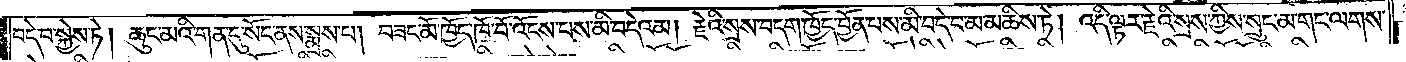བདེ་བ་སྐྱེས་ཏེ། ཆུང་མའི་གན་དུ་སོང་ནས་སྨྲས་པ། བཟང་མོ་ཁྱོད་ཁོ་བོ་འོངས་པས་མི་བདེའམ། རྗེའི་སྲས་བདག་ཁྱོད་བྱོན་པས་མི་བདེ་བ་མ་མཆིས་ཏེ། འདི་ལྟར་རྗེའི་སྲས་ཀྱིས་སྲུང་མ་གང་ལགས་
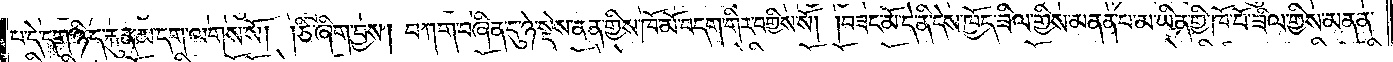པ་དེ་དག་ཉིད་རྐུན་མ་དག་ལགས་སོ། །ཅི་ཞིག་བྱས། བཀག་བཞིན་དུ་ཉེ་སྡེས་ནན་གྱིས་ཁོ་མོ་བདག་གིར་བགྱིས་སོ། །བཟང་མོ་དེ་ནི་དེས་ཁྱོད་ཟིལ་གྱིས་མནན་པ་མ་ཡིན་གྱི་ཁོ་བོ་ཟིལ་གྱིས་མནན་
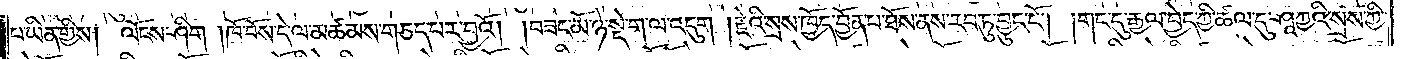པ་ཡིན་གྱིས། ལོངས་ཤིག །ཁོ་བོས་དེ་ལ་མཚམས་གཅད་པར་བྱའོ། །བཟང་མོ་ཉེ་སྡེ་ག་ལ་འདུག །རྗེའི་སྲས་ཁྱོད་བྱོན་པ་ཐོས་ནས་རབ་ཏུ་བྱུང་ངོ༌། །གང་དུ་རྒྱལ་བྱེད་ཀྱི་ཚལ་དུ་ཤཱཀྱའི་སྲས་ཀྱི་
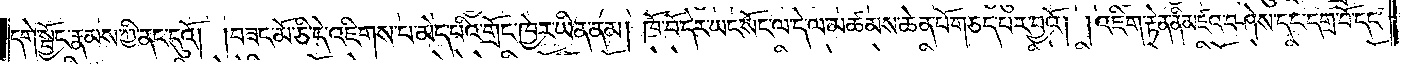དགེ་སྦྱོང་རྣམས་ཀྱི་ནང་དུའོ། །བཟང་མོ་ཅི་དེ་འཇིགས་པ་མེད་པའི་གྲོང་ཁྱེར་ཡིན་ནམ། ཁོ་བོ་དེར་ཡང་སོང་ལ་དེ་ལ་མཚམས་ཆེན་པོ་གཅད་པར་བྱའོ། །འཇིག་རྟེན་ནི་མཛའ་བཤེས་དང་དགྲ་བོ་དང་
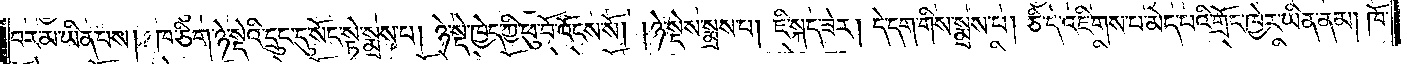བར་མ་ཡིན་པས། ཁ་ཅིག་ཉེ་སྡེའི་དྲུང་དུ་སོང་སྟེ་སྨྲས་པ། ཉེ་སྡེ་ཁྱེད་ཀྱི་ཕུ་བོ་འོངས་སོ། །ཉེ་སྡེས་སྨྲས་པ། ཇི་སྐད་ཟེར། དེ་དག་གིས་སྨྲས་པ། ཅི་དེ་འཇིགས་པ་མེད་པའི་གྲོང་ཁྱེར་ཡིན་ནམ། ཁོ་
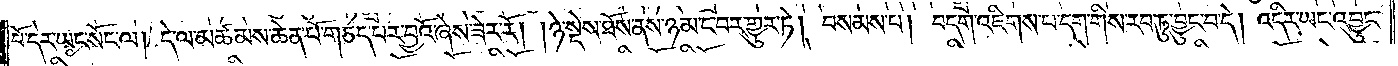བོ་དེར་ཡང་སོང་ལ། དེ་ལ་མཚམས་ཆེན་པོ་གཅད་པར་བྱའོ་ཞེས་ཟེར་རོ། །ཉེ་སྡེས་ཐོས་ནས་ཉམ་ང་བར་གྱུར་ཏེ། བསམས་པ། བདག་འཇིགས་པ་དག་གིས་རབ་ཏུ་བྱུང་བ་དེ། འདིར་ཡང་འབྱུང་
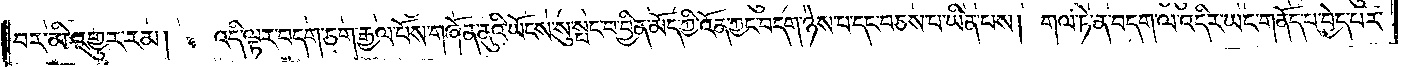བར་མི་འགྱུར་རམ།   འདི་ལྟར་བདག་ཅག་རྒྱལ་པོས་གཞོན་ནུའི་ཡོངས་སུ་སྤང་བ་བྱིན་མོད་ཀྱི་འོན་ཀྱང་བདག་ཉེས་པ་དང་བཅས་པ་ཡིན་པས། གལ་ཏེ་ན་བདག་ལ་འདིར་ཡང་གནོད་པ་བྱེད་པར་
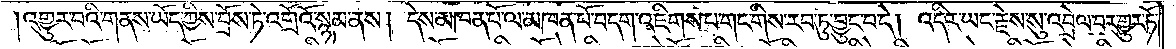འགྱུར་བའི་གནས་ཡོད་ཀྱིས་བྲོས་ཏེ་འགྲོའོ་སྙམ་ནས། དེས་མཁན་པོ་ལ་མཁན་པོ་བདག་འཇིགས་པ་གང་གིས་རབ་ཏུ་བྱུང་བ་དེ། འདིར་ཡང་རྗེས་སུ་འབྲེལ་བར་གྱུར་ཏོ་
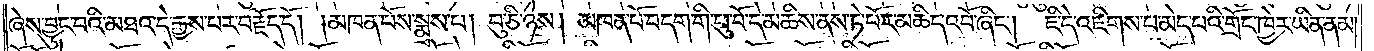ཞེས་བྱུང་བའི་མཐའ་དེ་རྒྱས་པར་བརྗོད་དོ། །མཁན་པོས་སྨྲས་པ། བུ་ཅི་ཉེས། མཁན་པོ་བདག་གི་ཕུ་བོ་དེ་མཆིས་ནས་ཏེ་པོར་མཆིད་འབོ་ཞིང༌། ཇི་དེ་འཇིགས་པ་མེད་པའི་གྲོང་ཁྱེར་ཡིན་ནམ།
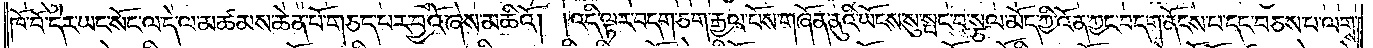ཁོ་བོ་དེར་ཡང་སོང་ལ་དེ་ལ་མཚམས་ཆེན་པོ་གཅད་པར་བྱའོ་ཞེས་མཆིའོ། །འདི་ལྟར་བདག་ཅག་རྒྱལ་པོས་གཞོན་ནུའི་ཡོངས་སུ་སྤང་བ་སྩལ་མོད་ཀྱི་འོན་ཀྱང་བདག་ནོངས་པ་དང་བཅས་པ་ལགས་
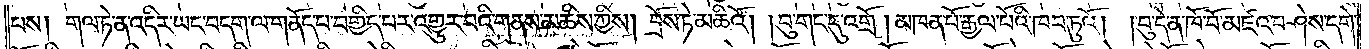པས། གལ་ཏེ་ན་འདིར་ཡང་བདག་ལ་གནོད་པ་བགྱིད་པར་འགྱུར་བའི་གནས་མཆིས་ཀྱིས། བྲོས་ཏེ་མཆིའོ། །བུ་གང་དུ་འགྲོ། མཁན་པོ་རྒྱལ་པོའི་ཁབ་ཏུའོ། །བུ་དེ་ན་ཁོ་བོ་མཛའ་བཤེས་དགེ་
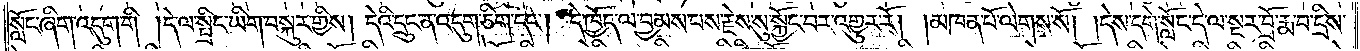སློང་ཞིག་འདུག་གི །དེ་ལ་སྤྲིང་ཡིག་བསྐུར་གྱིས། དེའི་དྲུང་ན་འདུག་ཅིག་དང༌། དེ་ཁྱོད་ལ་བྱམས་པས་རྗེས་སུ་སྐྱོང་བར་འགྱུར་རོ། །མཁན་པོ་ལེགས་སོ། །དེས་དགེ་སློང་དེ་ལ་སྔར་བྲོ་རྨ་བ་དྲིས་
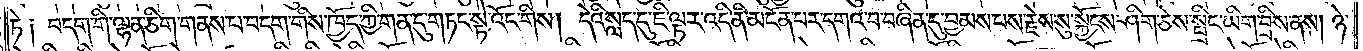ཏེ༑ བདག་གི་ལྷན་ཅིག་གནས་པ་བདག་གིས་ཁྱོད་ཀྱི་གན་དུ་གཏང་སྟེ་འོང་གིས། དེའི་སླད་དུ་ཇི་ལྟར་འདི་ནི་མངོན་པར་དགའ་བ་བཞིན་དུ་བྱམས་པས་རྗེས་སུ་སྐྱོངས་ཤིག་ཅེས་སྤྲིང་ཡིག་བྲིས་ནས། ཉེ་
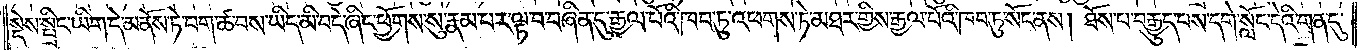སྡེས་སྤྲིང་ཡིག་དེ་མནོས་ཏེ་བག་ཚ་བས་ཡིད་མི་བདེ་ཞིང་ཕྱོགས་སུ་རྣམ་པར་ལྟ་བ་བཞིན་དུ་རྒྱལ་པོའི་ཁབ་ཏུ་འཕགས་ཏེ་མཐར་གྱིས་རྒྱལ་པོའི་ཁབ་ཏུ་སོང་ནས། ཐོས་པ་བརྒྱུད་པས་དགེ་སློང་དེའི་གན་དུ་
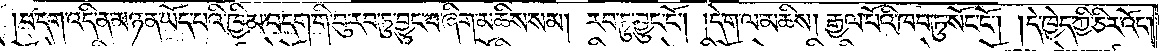པ་དག་འདི་ན་མཉན་ཡོད་པའི་ཁྱིམ་བདག་གི་བུ་རབ་ཏུ་བྱུང་བ་ཞིག་མཆིས་སམ། རབ་ཏུ་བྱུང་ངོ༌། །དེ་ག་ལ་མཆིས། རྒྱལ་པོའི་ཁབ་ཏུ་སོང་ངོ༌། །དེ་ཁྱེད་ཀྱི་ཅིར་འོང་
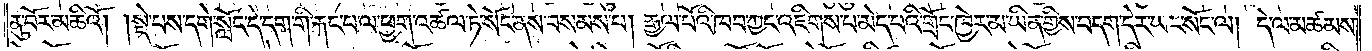ནུ་བོར་མཆིའོ། །སྡེ་པས་དགེ་སློང་དེ་དག་གི་རྐང་པ་ལ་ཕྱག་འཚལ་ཏེ་སོང་ནས་བསམས་པ། རྒྱལ་པོའི་ཁབ་ཀྱང་འཇིགས་པ་མེད་པའི་གྲོང་ཁྱེར་མ་ཡིན་གྱིས་བདག་དེར་ཡང་སོང་ལ། དེ་ལ་མཚམས་
